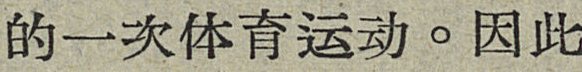的一次体育运动。因此
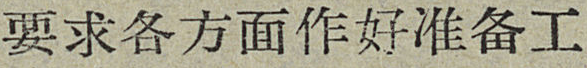要求各方面做好准备工
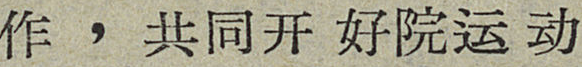作，共同开好院运动
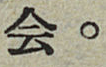会。
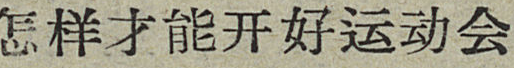怎样才能开好运动会
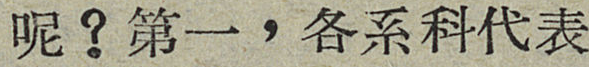呢？第一，各系科代表
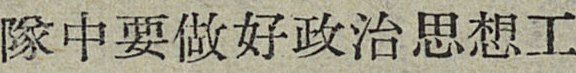隊中要做好政治思想工
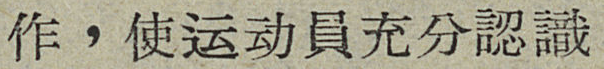作，使运动員充分認識
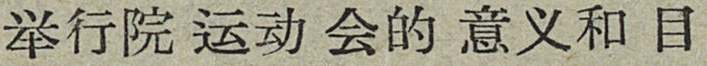举行院运动会的意义和目
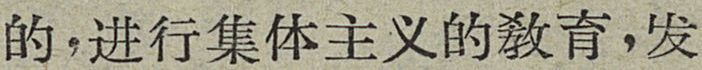的，进行集体主义的敎育，发
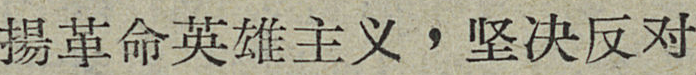揚革命英雄主义，坚决反对
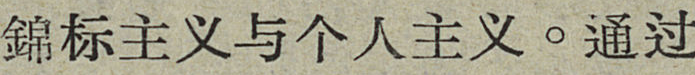錦标主义和个人主义。通过
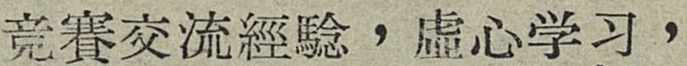竞賽交流經騐，虛心学习，
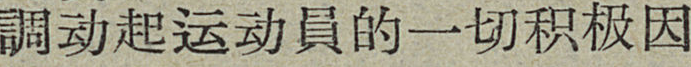調动起运动員的一切积极因
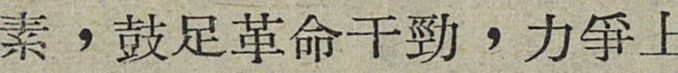素，鼓足革命干勁，力爭上
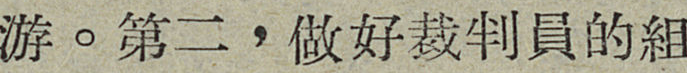游。第二，做好裁判員的組
